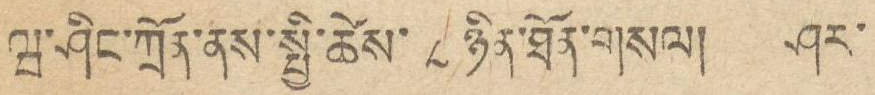ཝ་ཤིང་ཀྲོན་ནས་སྤྱི་ཚེས་ ༨ ཉིན་ཐོན་གསལ། ཤར་
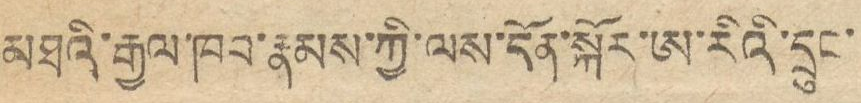མཐའི་རྒྱལ་ཁབ་རྣམས་ཀྱི་ལས་དོན་སྐོར་ཨ་རིའི་དྲུང་
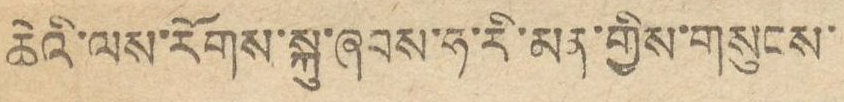ཆེའི་ལས་རོགས་སྐུ་ཞབས་ཧ་རི་མན་གྱིས་གསུངས་
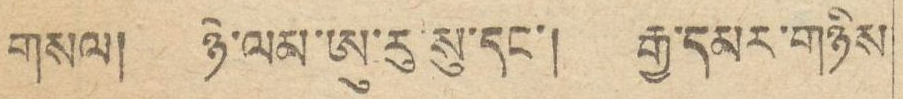གསལ། ཉེ་ལམ་ཨུ་རུ་སུ་དང་། རྒྱ་དམར་གཉིས་
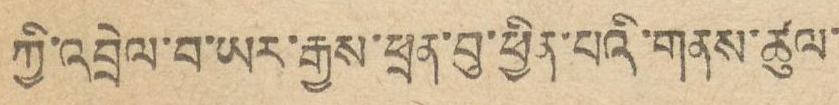ཀྱི་འབྲེལ་བ་ཡར་རྒྱས་ཕྲན་བུ་ཕྱིན་པའི་གནས་ཚུལ་
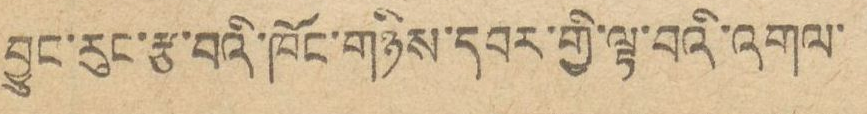བྱུང་རུང་རྩ་བའི་ཁོང་གཉིས་དབར་གྱི་ལྟ་བའི་འགུལ་
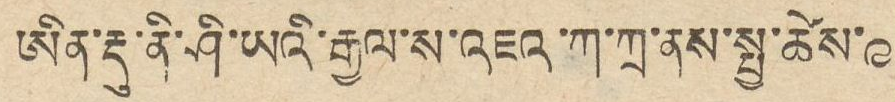ཨིན་རྡུ་ནི་ཤི་ཡའི་རྒྱལ་ས་འཇའ་ཀ་ཀྲ་ནས་སྤྱི་ཚེས་ ༩
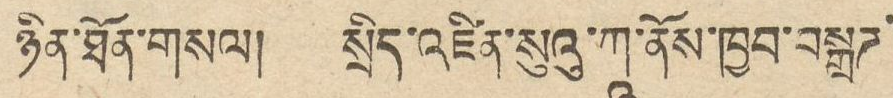ཉིན་ཐོན་གསལ། སྲིད་འཛིན་སུའུ་ཀཱ་ནོས་ཁྱབ་བསྒྲཌ་
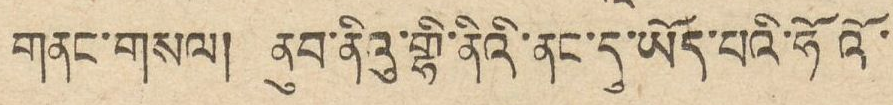གནང་གསལ། ནུབ་ནིའུ་གྷི་ནིའི་ནང་དུ་ཡོད་པའི་ཧོའོ་
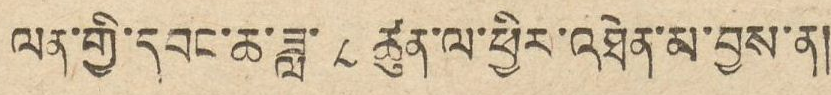ལན་གྱི་དབང་ཆ་ཟླ་ ༨ ཚུན་ལ་ཕྱིར་འཐེན་མ་བྱས་ན།
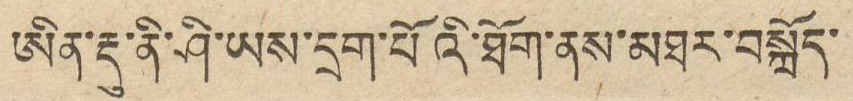ཨིན་རྡུ་ནི་ཤི་ཡས་དྲག་པོའི་ཐོག་ནས་མཐར་བསྐྲོད་
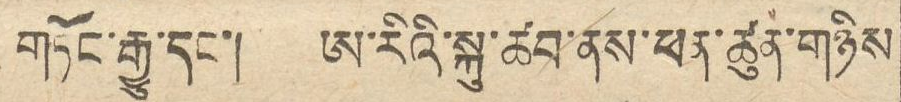གཏོང་རྒྱུ་དང་། ཨ་རིའི་སྐུ་ཚབ་ནས་ཕན་ཚུན་གཉིས
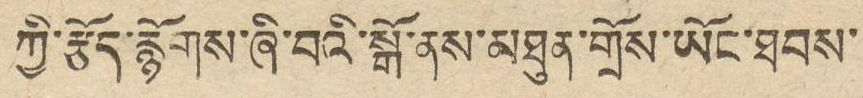ཀྱི་རྩོད་རྙོགས་ཞི་བའི་སྒོ་ནས་མཐུན་གྲོས་ཡོང་ཐབས་
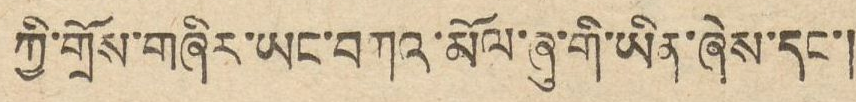ཀྱི་གྲོས་གཞིར་ཡང་བཀའ་མོལ་ཞུ་གི་ཡིན་ཞེས་དང་།
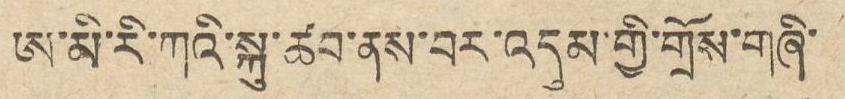ཨ་མི་རི་ཀའི་སྐུ་ཚབ་ནས་བར་འདུམ་གྱི་གྲོས་གཞི་
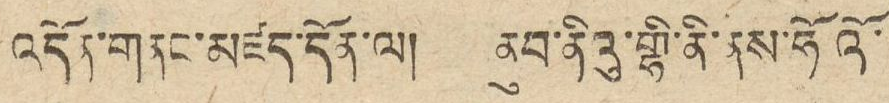འདོན་གནང་མཛད་དོན་ལ། ནུབ་ནིའུ་གྷི་ནི་ནས་ཧོའོ་
